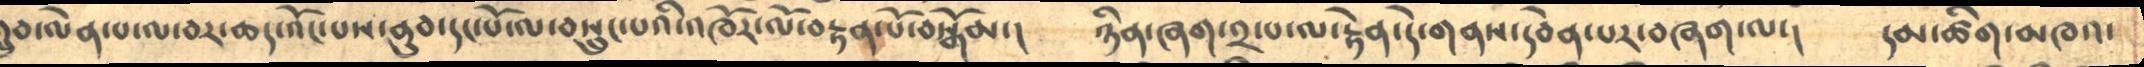གྲུབ་ལེན་པ་ལ་བར་ཆད་འོང་པས་ནུབ་དང་པོ་ལ་བསྲུང་པའི་འཁོར་ལོ་བརྟན་པོ་བསྒོམ་།      ཉིན་ཞག་༢་པ་ལ་རྟེན་དེ་གནས་དབེན་པར་བཞག་ལ་།    དམ་ཚིག་མཁའ་
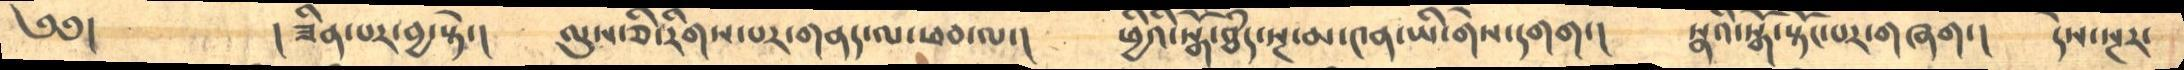༄༅།           ། ཟིན་པར་བྱ་སྟེ་།      ལུས་ཅི་རིགས་པར་གནད་ལ་ཕབ་ལ་།      ཕྱིའི་སྒོ་ཐཾད་སྔ་མ་༤ན་ཡི་གེས་དགག་།      སྣའི་སྒོ་སྟོང་པར་གཞག་།    དེས་སྔར་
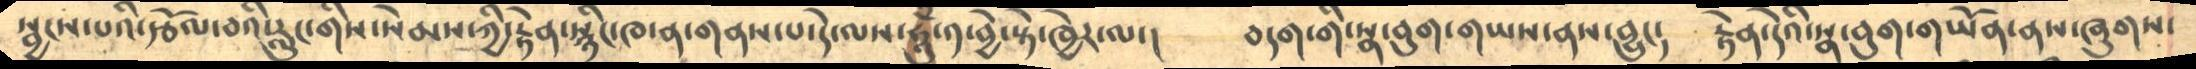སྦྱངས་པའི་རྩོལ་བའི་རླུང་གིས་སེམས་ཀྱི་རྟེན་སྙིང་ཁ་ན་གནས་པ་དེ་ལས་ཧཱུཾ་༡་བྱེ་སྟེ་ཁྱེར་ལ་།     བདག་གི་སྣ་བུག་གཡས་ནས་བྱུང༴     རྟེན་དེའི་སྣ་བུག་གཡོན་ནས་ཞུགས་
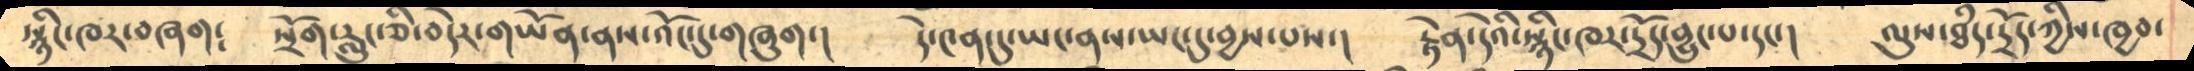སྙིང་ཁར་བཞག༴      སྲོག་རླུང་ཅི་བདེར་གཡོན་ནས་འོང་དུ་གཞུག་།     དེ་༤ན་དུ་ཡང་ནས་ཡང་དུ་བྱས་པས་།      རྟེན་དེའི་སྙིང་ཁར་དྲོད་བྱུང་པ་དང་།     ལུས་ཐཾད་དྲོད་ཀྱིས་ཁྱབ་
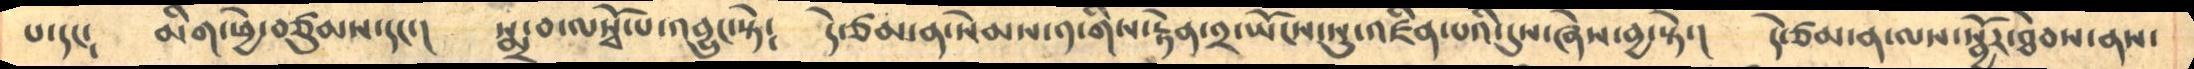པ་དང༴       མིག་ཕྱེ་བཙུམས་དང་།     སྨྲ་བ་ལསྭོ་པ་འབྱུང་སྟེ༴      དེ་ཙམ་ན་སེམས་༡་གིས་རྟེན་༢་ཡོངས་སུ་འཛིན་པའི་དུས་ཞེས་བྱ་སྟེ་།     དེ་ཙམ་ན་ལས་སྦྱོར་ཐེབས་ནས་
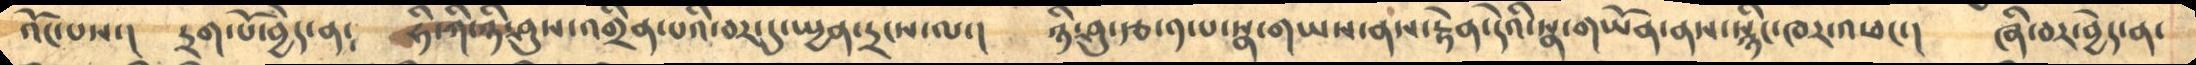འོང་པས་།     དྲག་པོ་བྱེད་ན༴     ཧི་ཀི་ཉི་ཤུས་འགྲིན་པའི་བར་དུ་སྤྱན་དྲངས་ལ་།      ཉི་ཤུ་རྩ་༡་པ་སྣ་གཡས་ནས་རྟེན་དེའི་སྣ་གཡོན་ནས་སྙིང་ཁར་འཕང་།    ཞི་བར་བྱེད་ན་
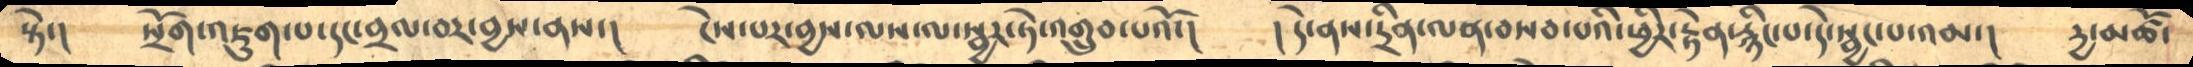སྟེ་།    སྲོག་འཇུག་པ་དང་བྲལ་བར་བྱས་ནས་།     ངེས་པར་བྱས་ལས་ལ་སྦྱར་ཏེ་འགྲུབ་པའོ་།     ། དེ་ནས་དྲིན་ལན་བསབ་པའི་ཕྱིར་རྟེན་རྙིང་པ་དེ་སྦྱང་པ་འམ་།    དྱ་མཚོ་
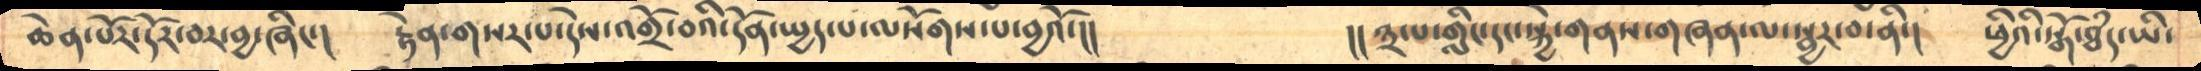ཆེན་པོར་དོར་བར་བྱ་ཞིང་།     རྟེན་གསར་པ་དེས་འགྲོ་བའི་དོན་སྤྱད་པ་ལསོགས་པ་བྱའོ་།།            །།༣་པ་གླིང་དང་སྐྱེ་གནས་གཞན་ལ་སྦྱར་བ་ནི་།     ཕྱིའི་སྒོ་ཐཾད་ཡི་
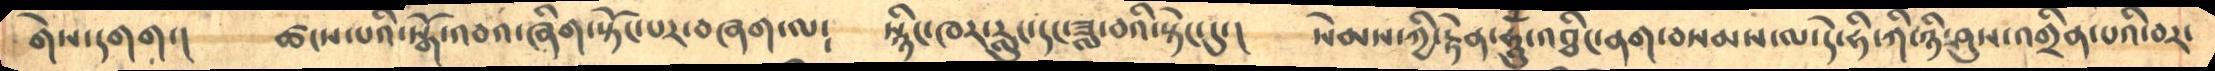གེས་དགག་།      ཚངས་པའི་སྒོ་འབའ་ཞིག་སྟོང་པར་བཞག་ལ༴     སྙིང་ཁར་རླུང་དང་ཟླ་བའི་སྟེང་དུ་།     སེམས་ཀྱི་རྟེན་ཧཱུཾ་འཐིང་ནག་བསམས་ལ་དེ་ཧི་ཀི་ཉི་ཤུས་འགྲིན་པའི་བར་
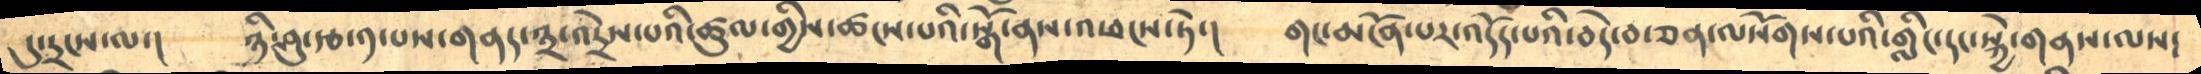དུ་དྲངས་ལ་།      ཉི་ཤུ་རྩ་༡་པས་གནད་༣་འདྲེས་པའི་ཚུལ་གྱིས་ཚངས་པའི་སྒོ་ནས་འཕངས་ཏེ་།      གང་མངོན་པར་འདོད་པའི་བདེ་བ་ཅན་ལསོགས་པའི་གླིང་དང་སྐྱེ་གནས་ལས༴
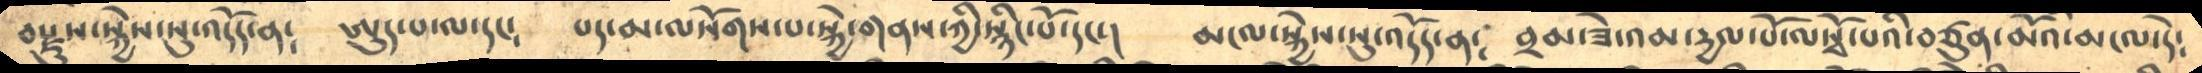བརྫུས་སྐྱེས་སུ་འདོད་ན༴    ཨུད་པ་ལ་དང༴     པད་མ་ལསོགས་པ་སྐྱེ་གནས་ཀྱི་སྙིང་པོ་དང་།      མངལ་སྐྱེས་སུ་འདོད་ན༴    བྲམ་ཟེ་འམ་དྱལ་པོ་ལསྭོ་པའི་བཙུན་མོའི་མངལ་དེ༴
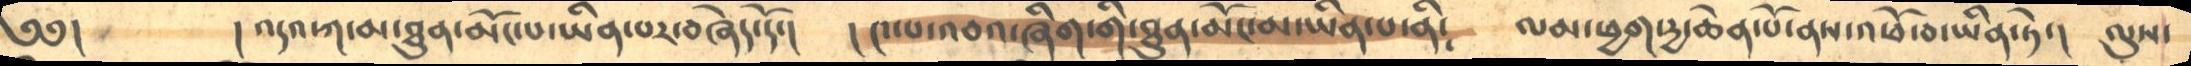༄༅།       ། འདའ་ཀ་མ་ཐུན་མོང་པ་ཡིན་པར་བཞེད་དོ་།      །༤་པ་འབའ་ཞིག་གི་ཐུན་མོང་མ་ཡིན་པ་ནི༴     ལམ་ཕྱག་དྱ་ཆེན་པོ་ནས་འཕོ་བ་ཡིན་ཏེ་།    ལུས་
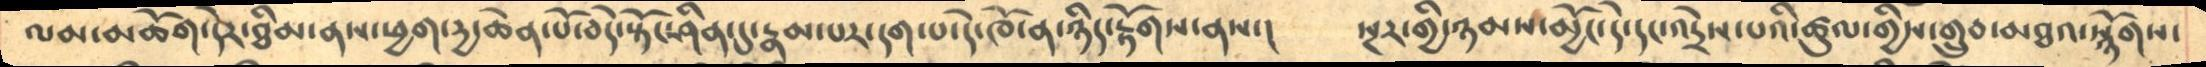ལམ་མཆོག་དེར་ཐིམ་ནས་ཕྱག་དྱ་ཆེན་པོ་བདེ་སྟོང་ཤིན་དུ་རྣམ་པར་དག་པ་དེ་ཁོ་ན་ཉིད་རྟོགས་ནས་།     སྔར་གྱི་ཉམས་མྱོང་དེ་དང་འདྲེས་པའི་ཚུལ་གྱིས་གྲུབ་མཐའ་སྙོགས་
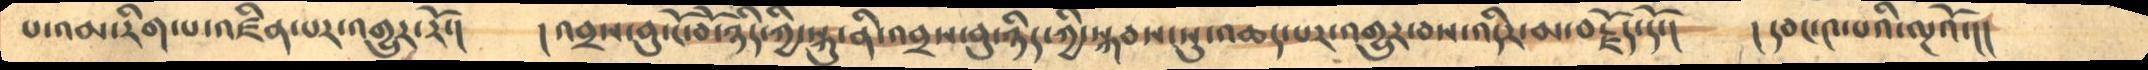པ་འམ་རིག་པ་འཛིན་པར་འགྱུར་རོ་།     ། འབྲས་བུ་ངོ་བོ་ཉིད་ཀྱི་སྐུ་ནི་འབྲས་བུ་ཉིད་ཀྱི་སྐབས་སུ་འཆད་པར་འགྱུར་བས་འདིར་མ་བརྗོད་དོ་།    །དབང་༤་པའི་ལྔའོ་།།
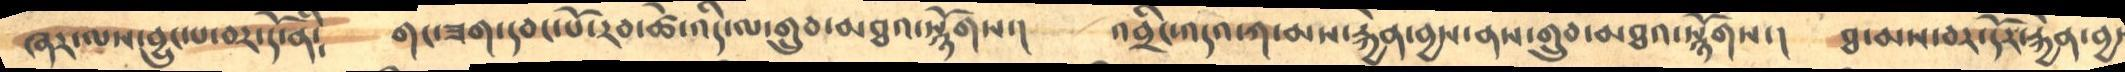ཞར་ལས་བྱུང་པ་བར་དོ་ནི༴    གང་ཟག་དབང་པོ་རབ་ཚེ་འདི་ལ་གྲུབ་མཐའ་སྙོགས་།      འབྲིང་འདའ་ཀ་མས་རྐྱེན་བྱས་ནས་གྲུབ་མཐའ་སྙོགས་།     ཐ་མས་བར་དོར་རྐྱེན་བྱ་
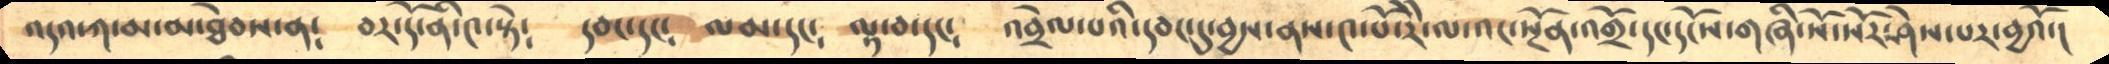འདའ་ཀ་མ་མ་ཐེབས་ན༴     བར་དོ་ནི་༤་སྟེ༴     དབང་དང༴  ལམ་དང༴     ལྟ་བ་དང༴     འབྲེལ་པའི་དབང་དུ་བྱས་ནས་༤་པོ་རཻ་ལ་འང་སྔོན་འགྲོ་དང་དངོས་གཞི་སོ་སོར་ཤེས་པར་བྱའོ་།
